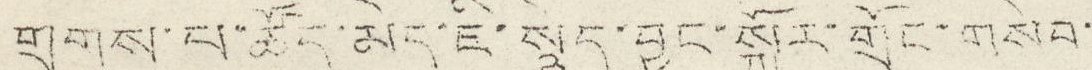གྲགས་པ་ཚོད་མེད་ཇི་སྙེད་བྱུང་སྐོར་གྲོང་གསེབ་
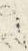ས
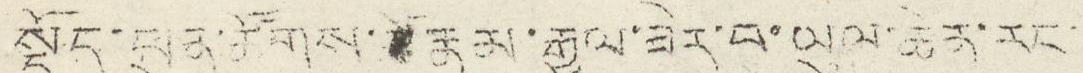སྡོད་ཕུན་ཚོགས་ རྣམ་རྒྱལ་ཟེར་བ་ཡུལ་ཆེན་རང་
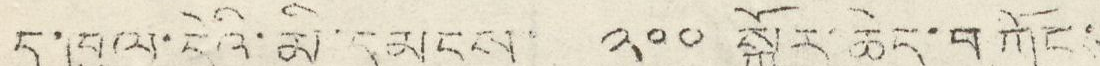དུ་ཁུལ་དེའི་མི་དམངས་ ༢༠༠ སྐོར་ཆེད་བཀོང་
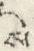ས
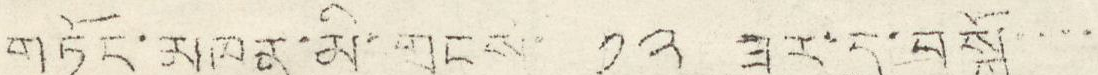གཏོང་མཁན་མི་གྲངས་ ༡༢ ཟུར་དུ་བསྐོ་་་་
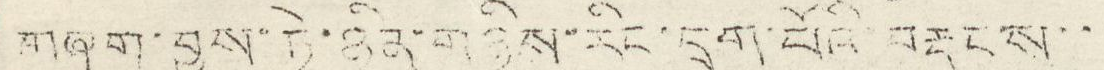གཞག་བྱས་ཏེ་ཉིན་གཉིས་རིང་དྲག་པོའི་བརྡུངས་་
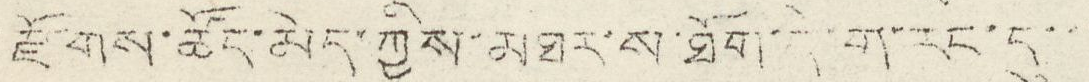རྫོགས་ཚོད་མེད་ཀྱིས་མཐར་ས་ཐོག་དེ་ག་རང་དུ་་་
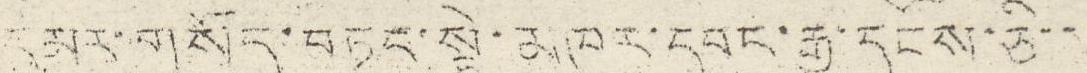དམར་གསོད་བཏང་སྟེ་མཁར་དབང་རྒྱུ་དངོས་ཅི་་
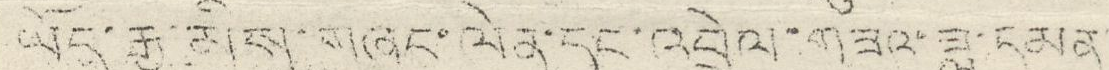ཡོད་རྒྱ་མིས་གཞུང་ལེན་དང་འབྲེལ་གཟའ་ཟླ་དམན
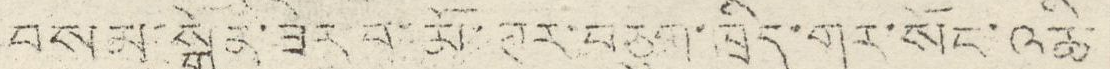བསམ་སྒྲོན་ཟེར་བ་མོ་ཊར་བཅུག་ཁྲིད་གར་སོང་འཆི་
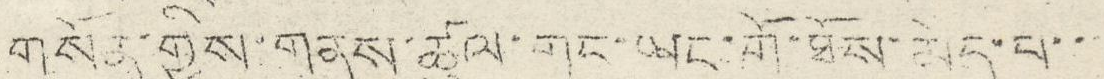གསོན་གྱིས་གནས་ཚུལ་གང་ཡང་གོ་ཐོས་མེད་པ་་་
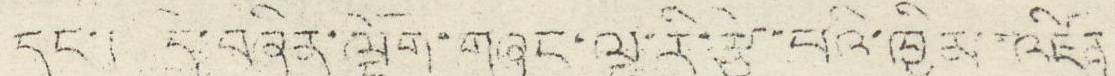དང་། དེ་བཞིན་ལྡོག་གཞུང་ལྷ་རི་རྩེ་པའི་ཁྱིམ་འཛིན
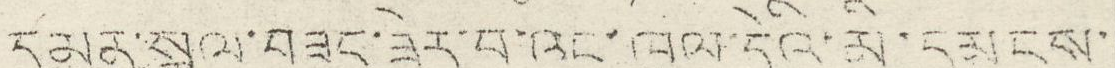དམན་སྐལ་བཟང་ཟེར་བ་འང་ཁུལ་དེའི་མི་དམངས་
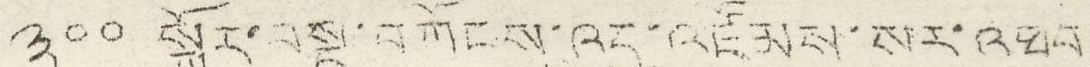༣༠༠ སྐོར་བསྡུ་བཀོངས་འདུ་འཛོམས་སར་འཐབ
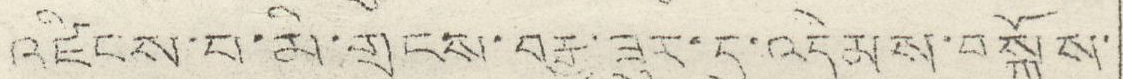འཛིངས་པ་མི་གྲངས་བརྒྱ་ཟུར་དུ་འདེམས་བསྐོས་
